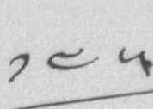༡༤༥
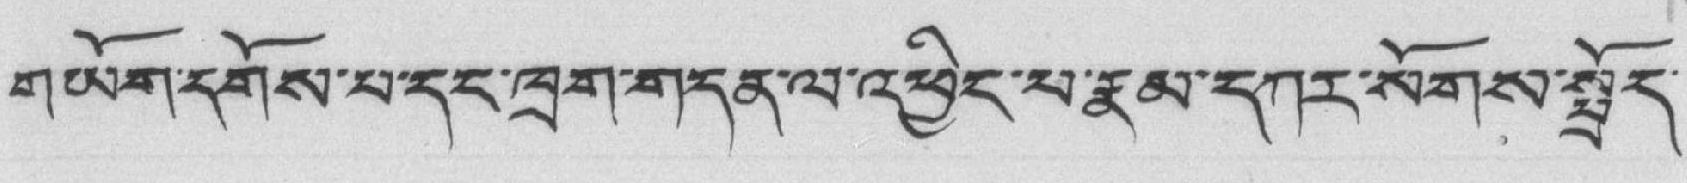གཡོག་དགོས་པ་དང་ཁྲག་གདན་ལ་འཕྱིང་པ་རྣམ་དཀར་སོགས་སྤྲོད་
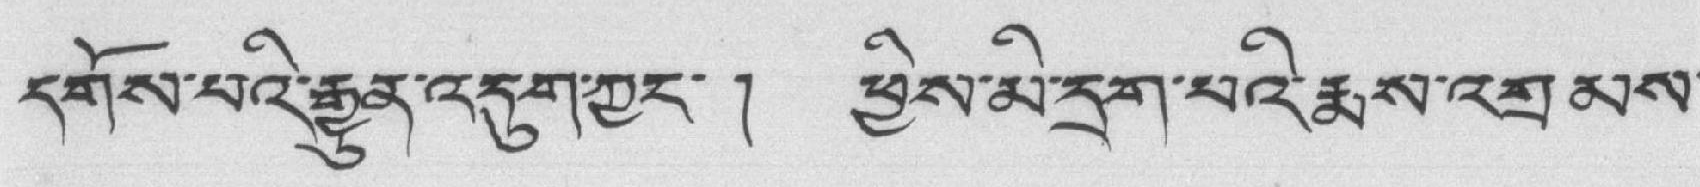དགོས་པའི་རྒྱུན་འདུག་ཀྱང་ ། ཕྱིས་མི་དྲག་པའི་རྨས་འགྲམས་
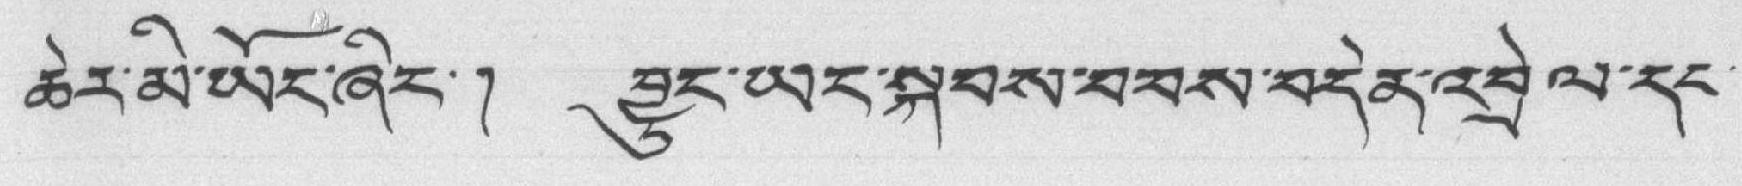ཆེར་མི་ཡོང་ཞིང་། བྱུང་ཡང་སྐབས་བབས་བདེན་འབྲེལ་དང་
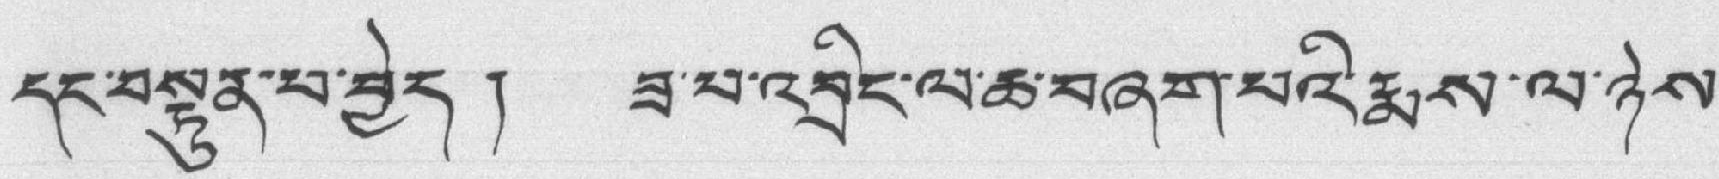དང་བསྟུན་པ་བྱེད། ཟ་པ་འབྲིང་ལ་ཆ་བཞག་པའི་རྨས་ལ་ཉེས་
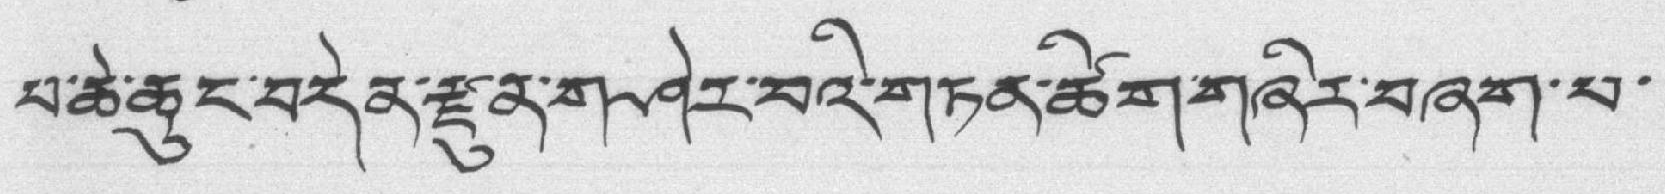པ་ཆེ་ཆུང་བདེན་རྫུན་གཤེར་བའི་གཏན་ཚིག་གཞིར་བཞག་པ་
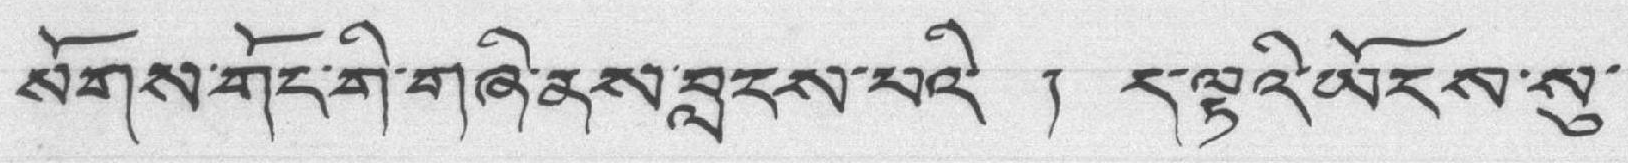སོགས་གོང་གི་གཞི་ནས་བླངས་པའི་ ། ད་ལྟའི་ཡོངས་སུ་
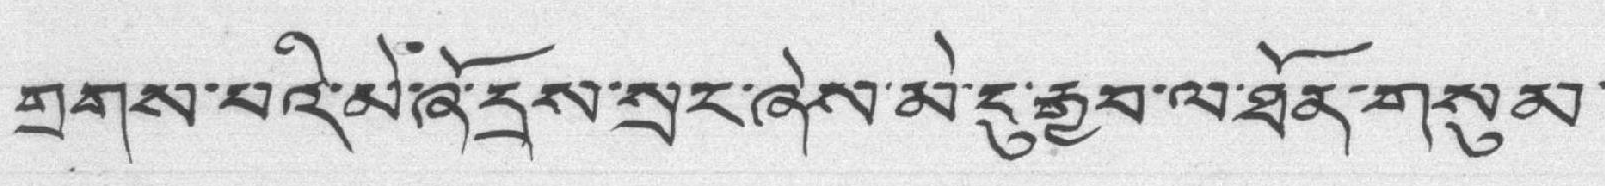གྲགས་པའི་མེ་ཞོ་དྲས་སྲང་ཞེས་མེ་ངུ་རྒྱབ་ལ་ཐོན་གསུམ་
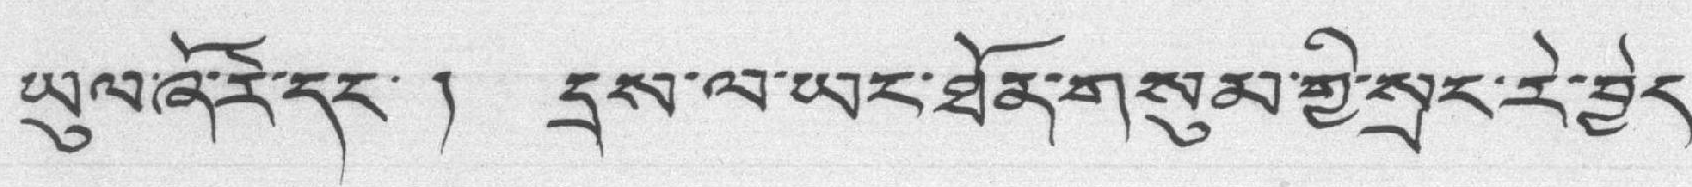ཡུལ་ཞོ་རེ་དང་ ། དྲས་ལ་ཡང་ཐོན་གསུམ་གྱི་སྲང་རེ་བྱེད་
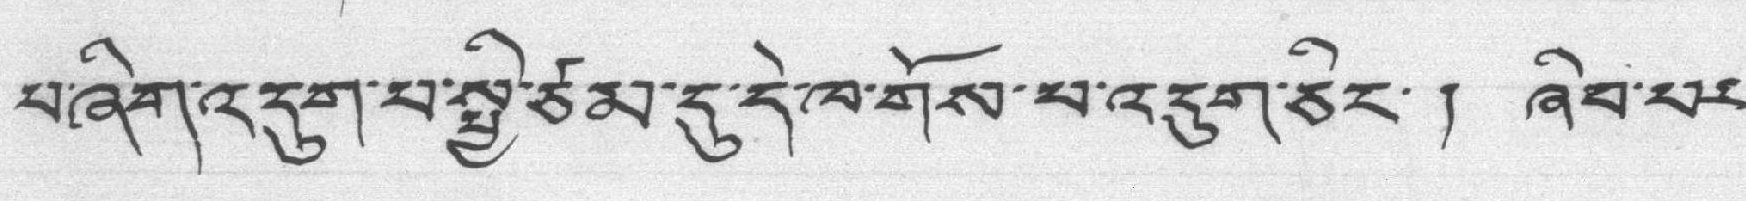པ་ཞིག་འདུག་པ་སྤྱི་ཙམ་དུ་དེ་ཁ་གོས་པ་འདུག་ཅིང་། ཞིབ་པར་
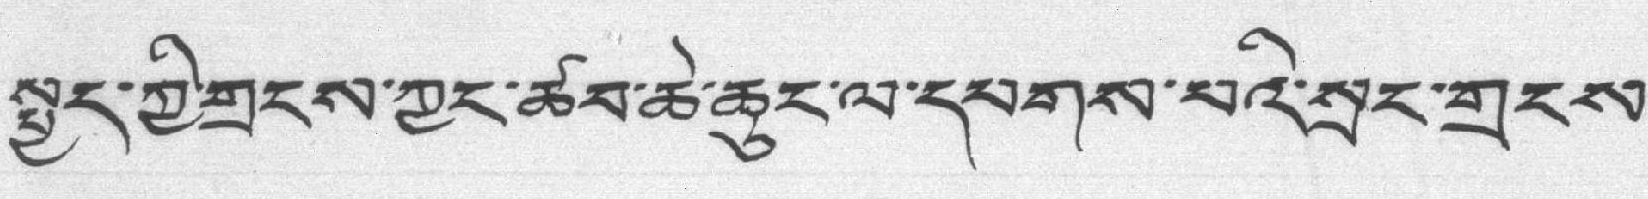སྤྱད་ཀྱི་གྲངས་ཀྱང་ཚབ་ཆེ་ཆུང་ལ་དཔགས་པའི་སྲང་གྲངས་
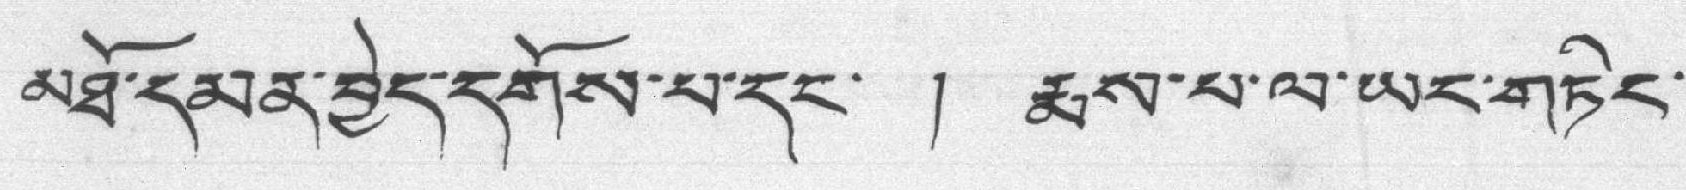མཐོ་དམན་བྱེད་དགོས་པ་དང་ ། རྨས་པ་ལ་ཡང་གཏིང་
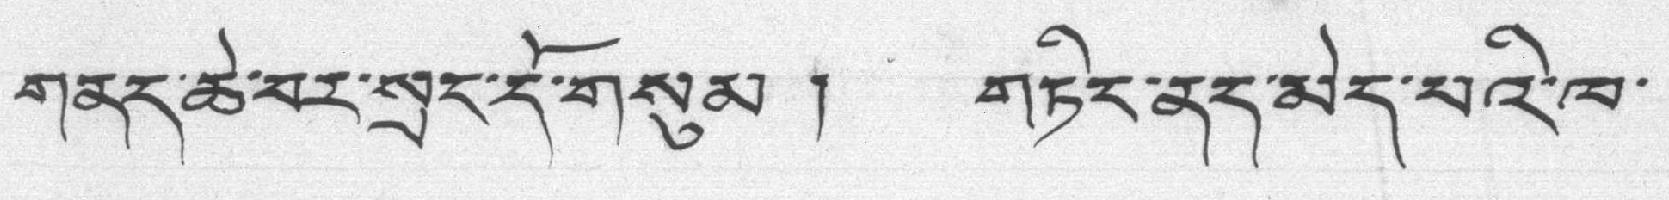གནད་ཆེ་བར་སྲང་དོ་གསུམ ། གཏིང་ནད་མེད་པའི་ཁ་
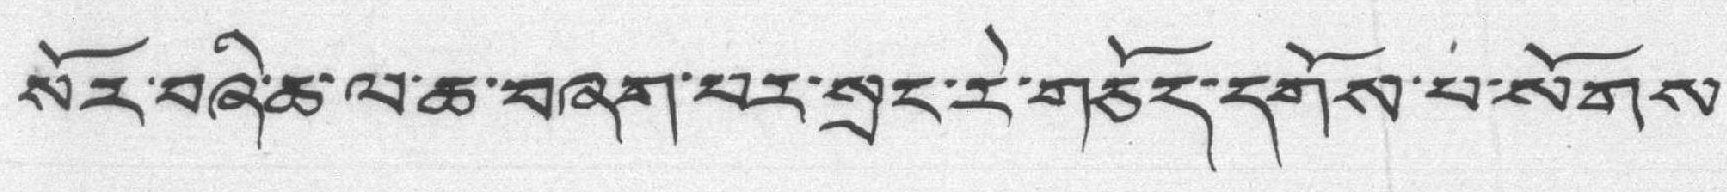སོར་བཞི་ཆ་ལ་ཆ་བཞག་པར་སྲང་རེ་གཅོད་དགོས་པ་སོགས་
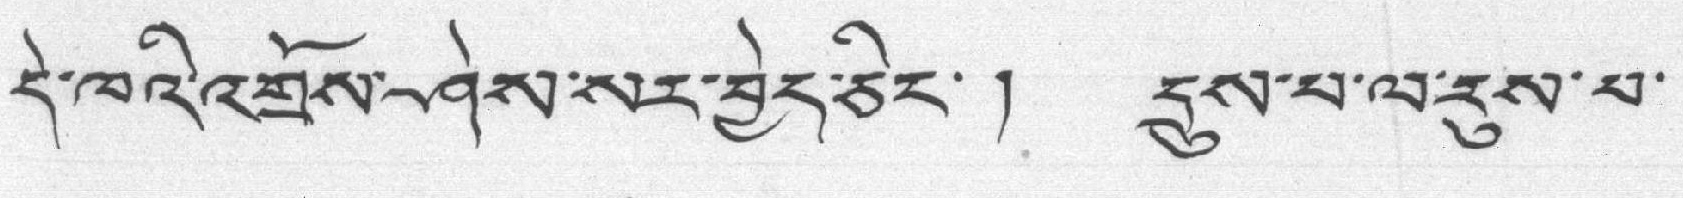དེ་ཁའི་འགྲོས་ཤེས་སར་བྱེད་ཅིང་། དྲུས་པ་ལ་རུས་པ་
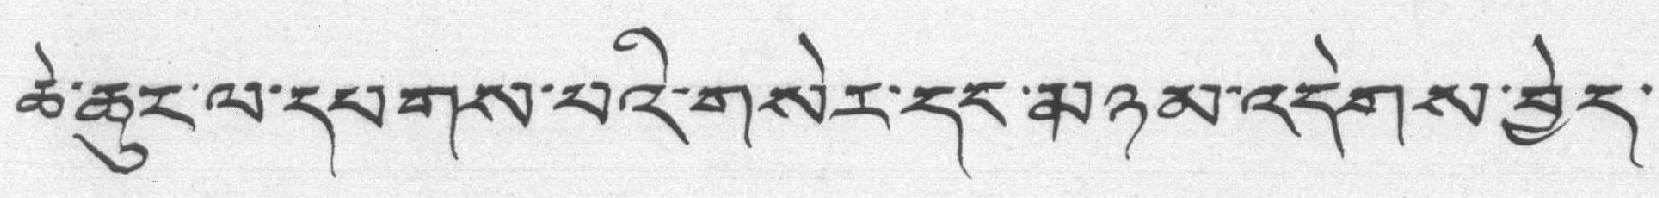ཆེ་ཆུང་ལ་དཔགས་པའི་གསེར་དང་མཉམ་འདེགས་བྱེད་
